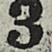3
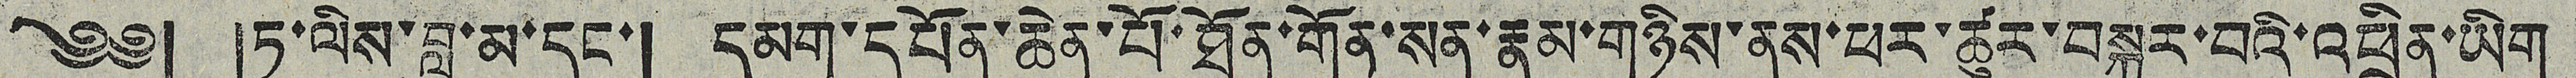༄༅། །ཏ་ལིས་བླ་མ་དང་། དམག་དཔོན་ཆེན་པོ་ཐོན་གོན་སན་རྣམ་གཉིས་ནས་ཕར་ཚུར་བསྐུར་བའི་འཕྲིན་ཡིག
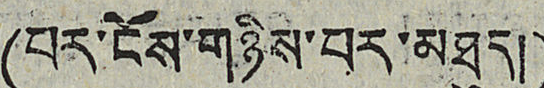(པར་ངོས་གཉིས་པར་མཐུད།)
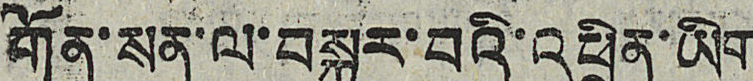གོན་སན་ལ་བསྐུར་བའི་འཕྲིན་ཡིག
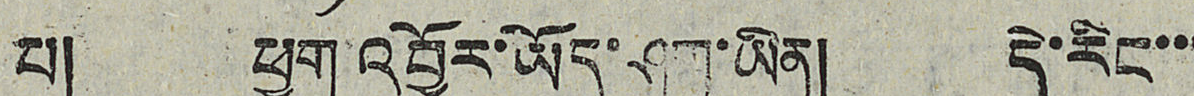པ། ཕྱག འབྱོར་ཡོད་ཤག་ཡིན། དེ་རིང་་་
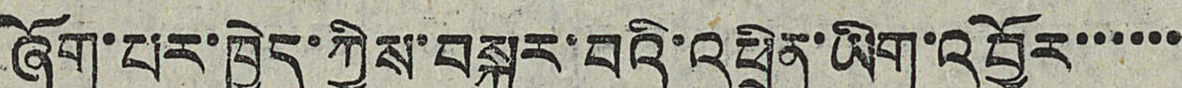ཞོག་པར་ཁྱེད་ཀྱིས་བསྐུར་བའི་འཕྲིན་ཡིག་འབྱོར་་་་་་་
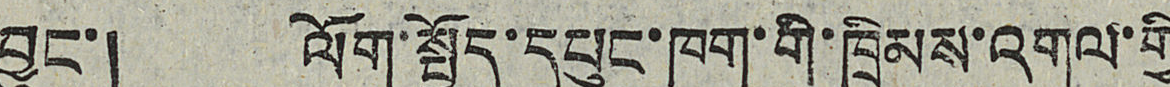བྱུང་། ལོག་སྤྱོད་དཔུང་ཁག་གི་ཁྲིམས་འགལ་གྱི
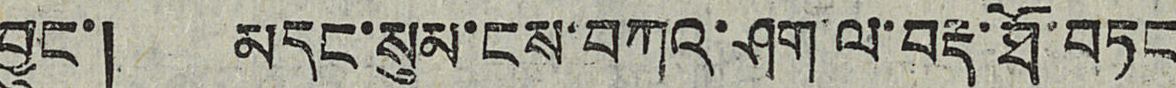བྱུང་། མདང་སུམ་ངས་བཀའ་ཤག་ལ་བརྡ་ཐོ་བཏང
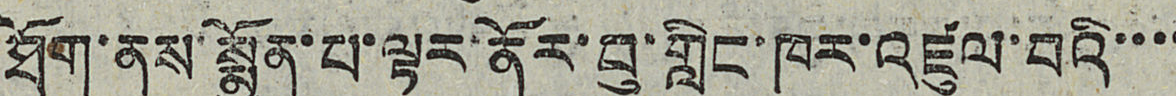ཐོག་ནས་སྨྱོན་པ་ལྟར་ནོར་བུ་གླིང་ཁར་འཛུལ་བའི་་་་
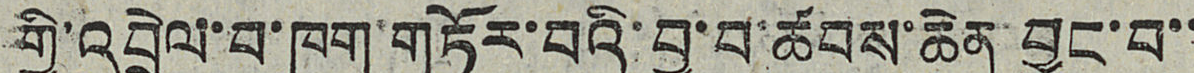གྱི་འབྲེལ་བ་ཁག་གཏོར་བའི་བྱ་བ་ཚབས་ཆེན བྱུང་བ་་
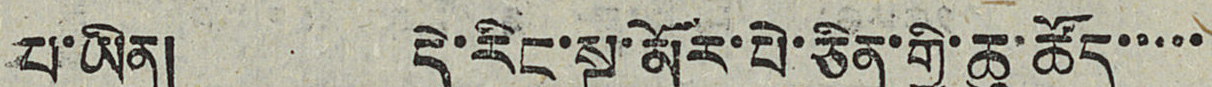པ་ཡིན། དེ་རིང་སྔ་མོར་པེ་ཅིན་གྱི་ཆུ་ཚོད་་་་་
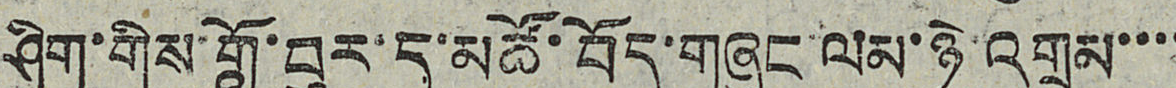ཤིག་གིས་གློ་བུར་དུ་མཚོ་བོད་གཞུང་ལམ་ཉེ འགྲམ་་་་
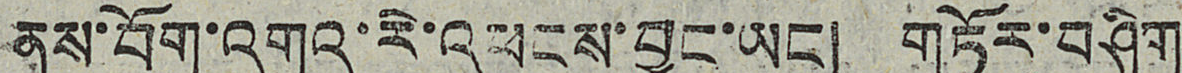ནས་བོག་འགའ་རེ་འཕངས་བྱུང་ཡང། གཏོར་བཤིག་
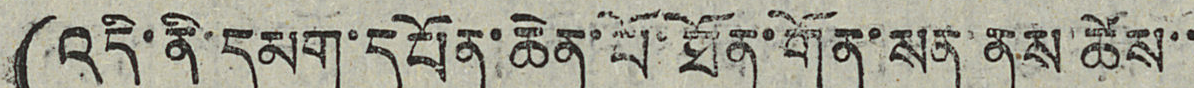(འདི་ནི་དམག་དཔོན་ཆེན་པོ་ཐོན་གོན་སན ནས་ཚེས་་
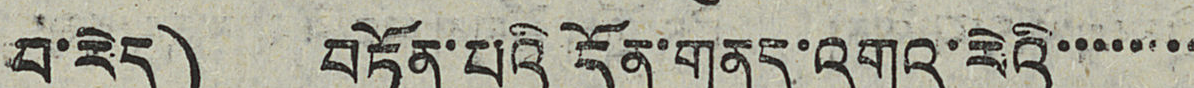བ་རེད) བཏོན་པའི དོན་གནད་འགའ་རེའི་་་་་་་་
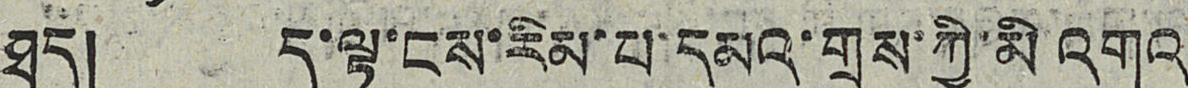ཐད། ད་ལྟ་ངས་རིམ་པ་དམའ་གྲས་ཀྱི་མི འགའ
